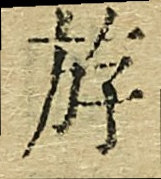斿
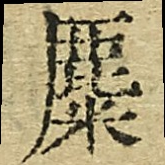麋
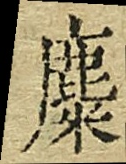麋
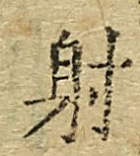射
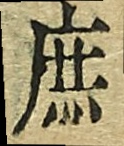庶
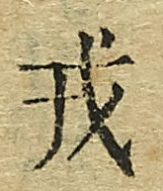戎
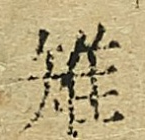雉
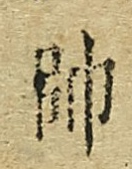帥
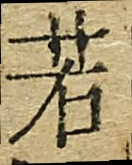若
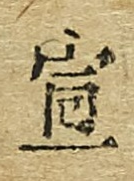宣
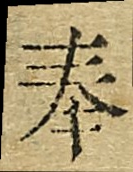奉
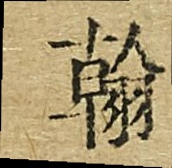翰
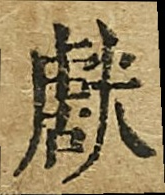獻
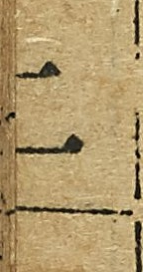二
